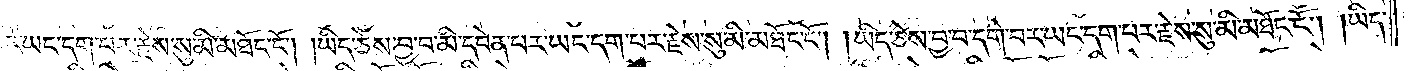པར་ཡང་དག་པར་རྗེས་སུ་མི་མཐོང་ངོ༌། །ཡིད་ཅེས་བྱ་བ་མི་དབེན་པར་ཡང་དག་པར་རྗེས་སུ་མི་མཐོང་ངོ༌། །ཡིད་ཅེས་བྱ་བ་དགེ་བར་ཡང་དག་པར་རྗེས་སུ་མི་མཐོང་ངོ༌། །ཡིད་
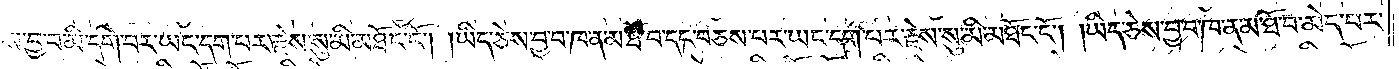ཅེས་བྱ་བ་མི་དགེ་བར་ཡང་དག་པར་རྗེས་སུ་མི་མཐོང་ངོ༌། །ཡིད་ཅེས་བྱ་བ་ཁ་ན་མ་ཐོ་བ་དང་བཅས་པར་ཡང་དག་པར་རྗེས་སུ་མི་མཐོང་ངོ༌། །ཡིད་ཅེས་བྱ་བ་ཁ་ན་མ་ཐོ་བ་མེད་པར་
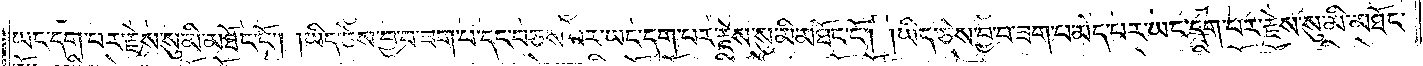ཡང་དག་པར་རྗེས་སུ་མི་མཐོང་ངོ༌། །ཡིད་ཅེས་བྱ་བ་ཟག་པ་དང་བཅས་པར་ཡང་དག་པར་རྗེས་སུ་མི་མཐོང་ངོ༌། །ཡིད་ཅེས་བྱ་བ་ཟག་པ་མེད་པར་ཡང་དག་པར་རྗེས་སུ་མི་མཐོང་
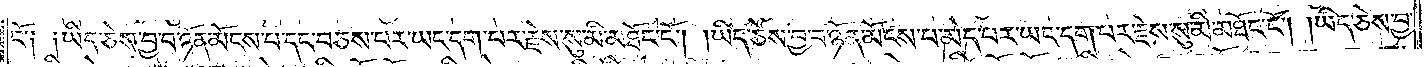ངོ༑ ༑ཡིད་ཅེས་བྱ་བ་ཉོན་མོངས་པ་དང་བཅས་པར་ཡང་དག་པར་རྗེས་སུ་མི་མཐོང་ངོ༌། །ཡིད་ཅེས་བྱ་བ་ཉོན་མོངས་པ་མེད་པར་ཡང་དག་པར་རྗེས་སུ་མི་མཐོང་ངོ༌། །ཡིད་ཅེས་བྱ་
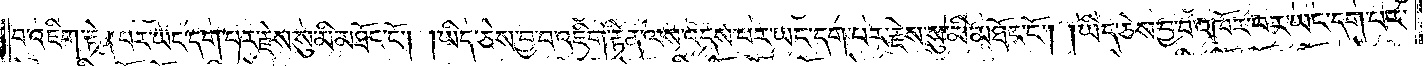བ་འཇིག་རྟེན་པར་ཡང་དག་པར་རྗེས་སུ་མི་མཐོང་ངོ༌། །ཡིད་ཅེས་བྱ་བ་འཇིག་རྟེན་ལས་འདས་པར་ཡང་དག་པར་རྗེས་སུ་མི་མཐོང་ངོ༌། །ཡིད་ཅེས་བྱ་བ་འཁོར་བར་ཡང་དག་པར་
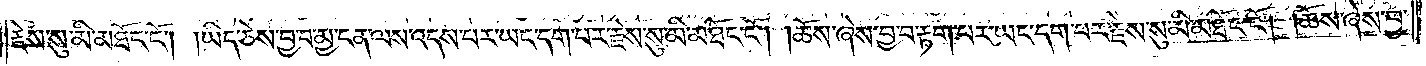རྗེས་སུ་མི་མཐོང་ངོ༌། །ཡིད་ཅེས་བྱ་བ་མྱ་ངན་ལས་འདས་པར་ཡང་དག་པར་རྗེས་སུ་མི་མཐོང་ངོ༌། །ཆོས་ཞེས་བྱ་བ་རྟག་པར་ཡང་དག་པར་རྗེས་སུ་མི་མཐོང་ངོ༌། །ཆོས་ཞེས་བྱ་
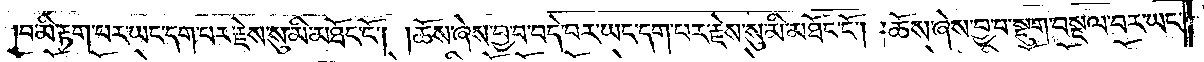བ་མི་རྟག་པར་ཡང་དག་པར་རྗེས་སུ་མི་མཐོང་ངོ༌། །ཆོས་ཞེས་བྱ་བ་བདེ་བར་ཡང་དག་པར་རྗེས་སུ་མི་མཐོང་ངོ༌། །ཆོས་ཞེས་བྱ་བ་སྡུག་བསྔལ་བར་ཡང་
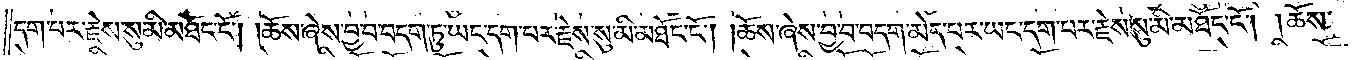དག་པར་རྗེས་སུ་མི་མཐོང་ངོ༌། །ཆོས་ཞེས་བྱ་བ་བདག་ཏུ་ཡང་དག་པར་རྗེས་སུ་མི་མཐོང་ངོ༌། །ཆོས་ཞེས་བྱ་བ་བདག་མེད་པར་ཡང་དག་པར་རྗེས་སུ་མི་མཐོང་ངོ༌། །ཆོས་
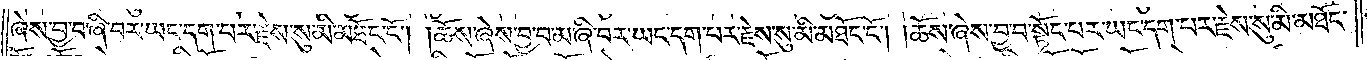ཞེས་བྱ་བ་ཞི་བར་ཡང་དག་པར་རྗེས་སུ་མི་མཐོང་ངོ༌། །ཆོས་ཞེས་བྱ་བ་མ་ཞི་བར་ཡང་དག་པར་རྗེས་སུ་མི་མཐོང་ངོ༌། །ཆོས་ཞེས་བྱ་བ་སྟོང་པར་ཡང་དག་པར་རྗེས་སུ་མི་མཐོང་
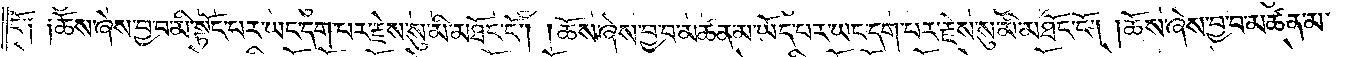ངོ༑ ༑ཆོས་ཞེས་བྱ་བ་མི་སྟོང་པར་ཡང་དག་པར་རྗེས་སུ་མི་མཐོང་ངོ༌། །ཆོས་ཞེས་བྱ་བ་མཚན་མ་ཡོད་པར་ཡང་དག་པར་རྗེས་སུ་མི་མཐོང་ངོ༌། །ཆོས་ཞེས་བྱ་བ་མཚན་མ་
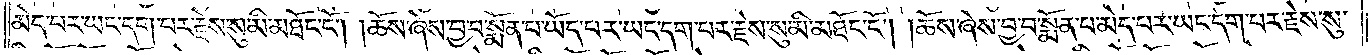མེད་པར་ཡང་དག་པར་རྗེས་སུ་མི་མཐོང་ངོ༌། །ཆོས་ཞེས་བྱ་བ་སྨོན་པ་ཡོད་པར་ཡང་དག་པར་རྗེས་སུ་མི་མཐོང་ངོ༌། །ཆོས་ཞེས་བྱ་བ་སྨོན་པ་མེད་པར་ཡང་དག་པར་རྗེས་སུ་
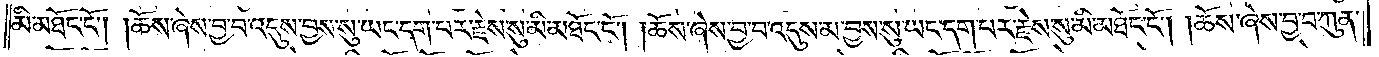མི་མཐོང་ངོ༌། །ཆོས་ཞེས་བྱ་བ་འདུས་བྱས་སུ་ཡང་དག་པར་རྗེས་སུ་མི་མཐོང་ངོ༌། །ཆོས་ཞེས་བྱ་བ་འདུས་མ་བྱས་སུ་ཡང་དག་པར་རྗེས་སུ་མི་མཐོང་ངོ༌། །ཆོས་ཞེས་བྱ་བ་ཀུན་
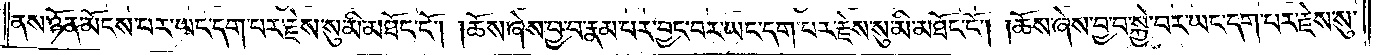ནས་ཉོན་མོངས་པར་ཡང་དག་པར་རྗེས་སུ་མི་མཐོང་ངོ༌། །ཆོས་ཞེས་བྱ་བ་རྣམ་པར་བྱང་བར་ཡང་དག་པར་རྗེས་སུ་མི་མཐོང་ངོ༌། །ཆོས་ཞེས་བྱ་བ་སྐྱེ་བར་ཡང་དག་པར་རྗེས་སུ་
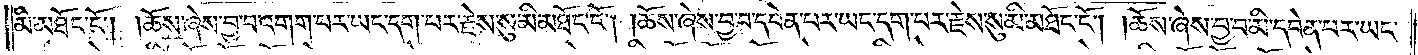མི་མཐོང་ངོ༌། །ཆོས་ཞེས་བྱ་བ་འགག་པར་ཡང་དག་པར་རྗེས་སུ་མི་མཐོང་ངོ༌། །ཆོས་ཞེས་བྱ་བ་དབེན་པར་ཡང་དག་པར་རྗེས་སུ་མི་མཐོང་ངོ༌། །ཆོས་ཞེས་བྱ་བ་མི་དབེན་པར་ཡང་
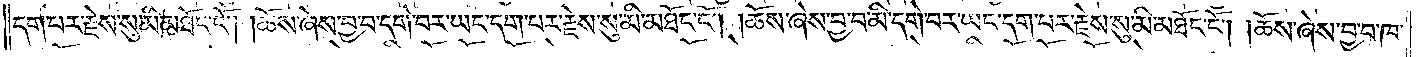དག་པར་རྗེས་སུ་མི་མཐོང་ངོ༌། །ཆོས་ཞེས་བྱ་བ་དགེ་བར་ཡང་དག་པར་རྗེས་སུ་མི་མཐོང་ངོ༌། །ཆོས་ཞེས་བྱ་བ་མི་དགེ་བར་ཡང་དག་པར་རྗེས་སུ་མི་མཐོང་ངོ༌། །ཆོས་ཞེས་བྱ་བ་ཁ་
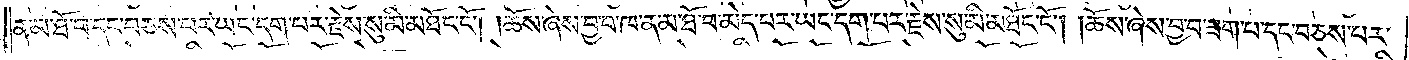ན་མ་ཐོ་བ་དང་བཅས་པར་ཡང་དག་པར་རྗེས་སུ་མི་མཐོང་ངོ༌། །ཆོས་ཞེས་བྱ་བ་ཁ་ན་མ་ཐོ་བ་མེད་པར་ཡང་དག་པར་རྗེས་སུ་མི་མཐོང་ངོ༌། །ཆོས་ཞེས་བྱ་བ་ཟག་པ་དང་བཅས་པར་
